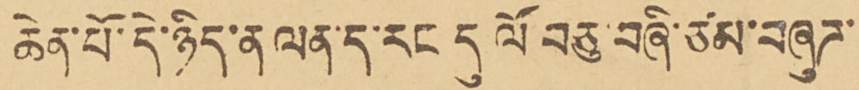ཆེན་པོ་དེ་ཉིད་ན ལན་ད་རང དུ ལོ བཅུ་བཞི་ཙམ་བཞུཌ་
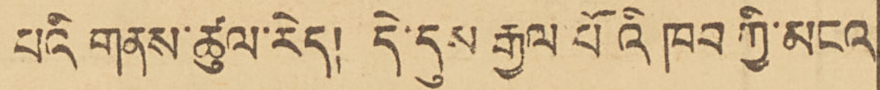པའི གནས་ཚུལ་རེད། དེ་དུས རྒྱལ པོའི ཁབ ཀྱི་མངའ
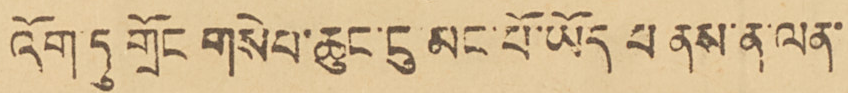འོག་ཏུ གྲོང གསེཔ་ཆུང་ངུ མང་པོ་ཡོད པ ནས་ན་ལན་
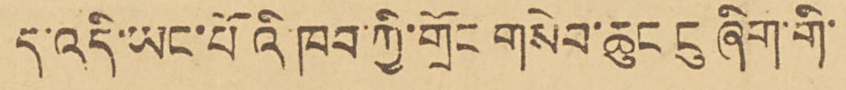ད་འདི་ཡང་པོའི་ཁབ་ཀྱི་གྲོང གསེབ་ཆུང ངུ ཞིག་གི་
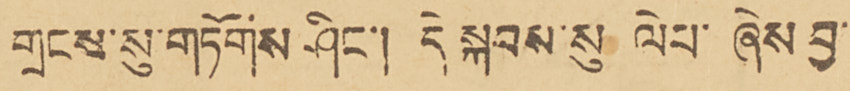གྲངས་སུ་གཏོགས ཤིང་། དེ སྐབས་སུ ལེབ་ཞེས བྱ་
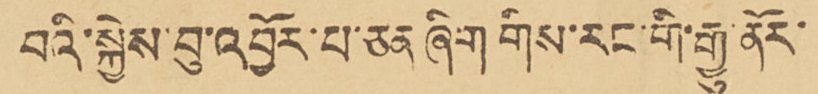བའི་སྐྱེས་བུ་འབྱོར་པ་ཙན ཞིག གིས་རང་གི་རྒྱུ་ནོར་
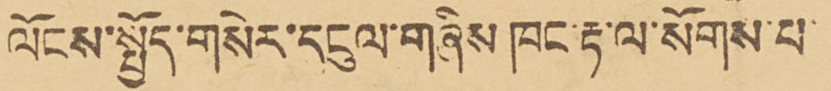ལོངས་སྤྱོད་གསེར་དངུལ་གཞིས ཁང་རྟ་ལ་སོགས་པ་
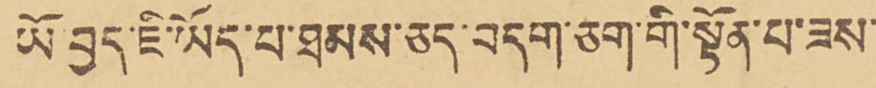ཡོ བྱད་ཇི་ཡོད་པ་ཐམས་ཅད་བདག་ཅག་གི་སྟོན་པ་ཟས་
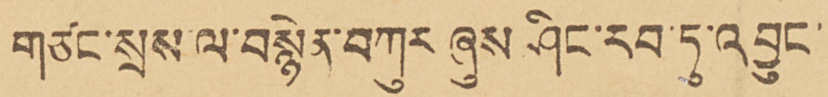གཙང་སྲས་ལ་བསྙེན་བཀུར ཞུས ཤིང་རབ་ཏུ་འབྱུང་
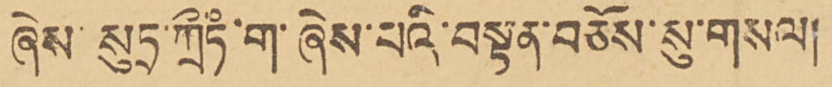ཞེས་སུཏྲ་ཀྲིཏཾ་ག་ཞེས་པའི་བསྟན་བཅོས་སུ་གསལ།
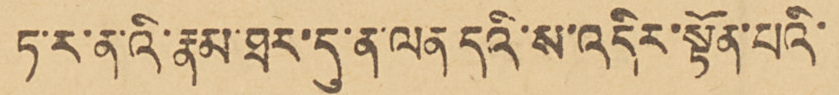ཏ་ར་ནའི་རྣམ་ཐར་དུ་ན་ལན དའི་ས་འདིར་སྟོན་པའི་
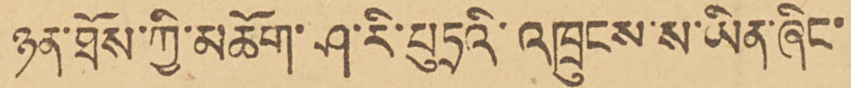ཉན་ཐོས་ཀྱི་མཆོག་ཤ་རི་པུཏྲའི་འཁྲུངས་ས་ཡིན་ཞིང་
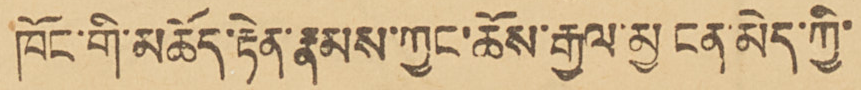ཁོང་གི་མཆོད་རྟེན་རྣམས་ཀྱང་ཆོས་རྒྱལ་མྱ ངན་མེད་ཀྱི་
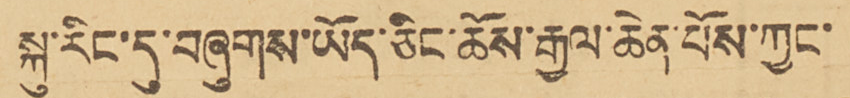སྐུ་རིང་དུ་བཞུགས་ཡོད་ཅིང་ཆོས་རྒྱལ་ཆེན་པོས་ཀྱང་
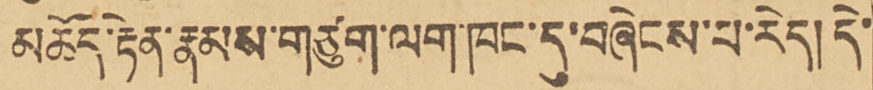མཆོད་རྟེན་རྣམས་གཙུག་ལག་ཁང་དུ་བཞེངས་པ་རེད། དེ་
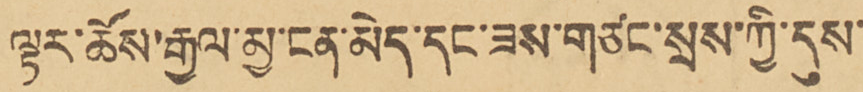ལྟར་ཚོས་རྒྱལ་མྱ་ངན་མེད་དང་ཟས་གཙང་སྲས་ཀྱི་དུས་
